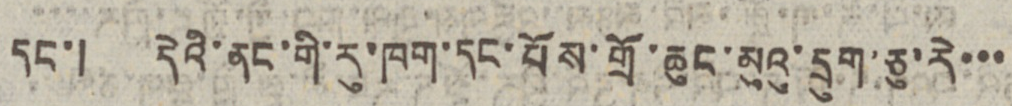དང་། དེའི་ནང་གི་རུ་ཁག་དང་པོས་གྲོ་ཆུང་མུའུ་དྲུག་ཅུ་རེ་་་
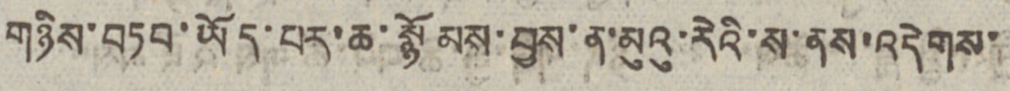གཉིས་བཏབ་ཡོད་པར་ཆ་སྙོམས་བྱས་ན་མུའུ་རེའི་ས་ནས་འདེགས་
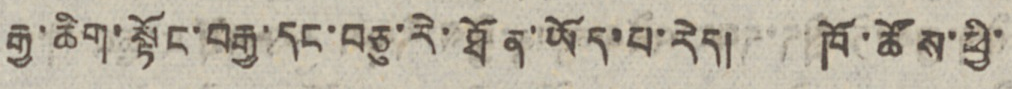རྒྱ་ཆིག་སྟོང་བརྒྱ་དང་བཅུ་རེ་ཐོན་ཡོད་པ་རེད། ཁོ་ཚོས་ཕྱི་
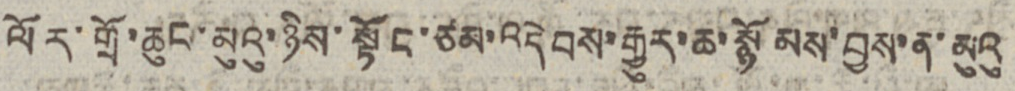ལོར་གྲོ་ཆུང་མུའུ་ཉིས་སྟོང་ཙམ་འདེབས་རྒྱུར་ཆ་སྙོམས་བྱས་ན་མུའུ
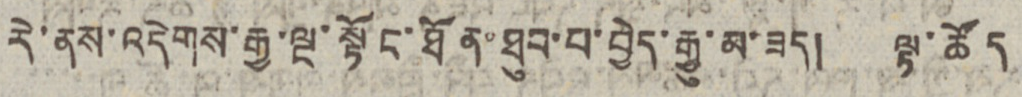རེ་ནས་འདེགས་རྒྱ་ལྔ་སྟོང་ཐོན་ཐུབ་པ་བྱེད་རྒྱུ་མ་ཟད། ལྟ་ཚོད
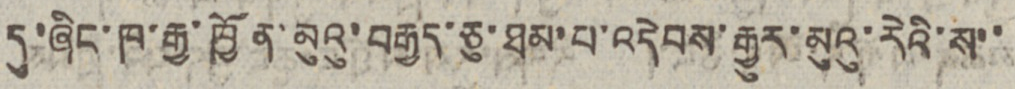དུ་ཞིང་ཁ་རྒྱ་ཁྱོན་མུའུ་བརྒྱད་ཅུ་ཐམ་པ་འདེབས་རྒྱུར་མུའུ་རེའི་ས་་
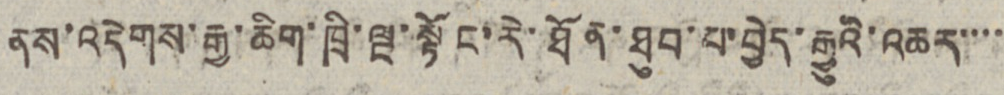ནས་འདེགས་རྒྱ་ཆིག་ཁྲི་ལྔ་སྟོང་རེ་ཐོན་ཐུབ་པ་བྱེད་རྒྱུའི་འཆར་་་་
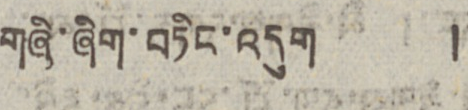གཞི་ཞིག་བཏིང་འདུག །
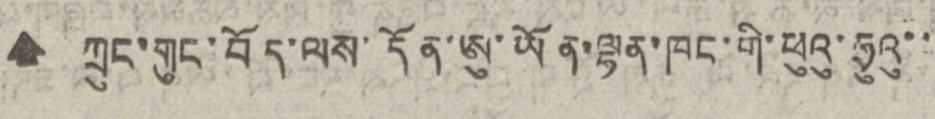🠹 ཀྲུང་གུང་བོད་ལས་དོན་ཨུ་ཡོན་ལྷན་ཁང་གི་ཕུའུ་ཧྲུའུ་་
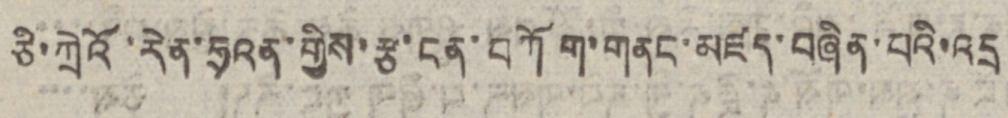ཅི་ཀྲེའོ་རེན་ཧྲའན་གྱིས་རྩ་ངན་བཀོག་གནང་མཛད་བཞིན་པའི་འདྲ
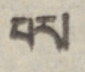པར།
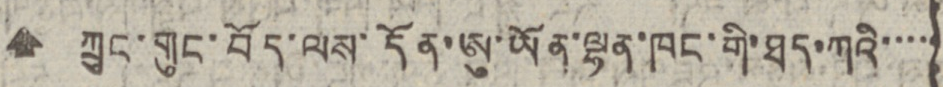🠹 ཀྲུང་གུང་བོད་ལས་དོན་ཨུ་ཡོན་ལྷན་ཁང་གི་ཐད་ཀའི་་་་་
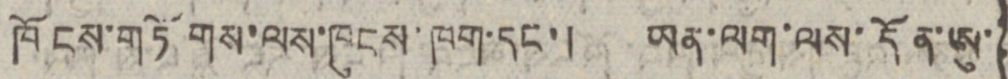ཁོངས་གཏོགས་ལས་ཁུངས་ཁག་དང་། ཡན་ལག་ལས་དོན་ཨུ་
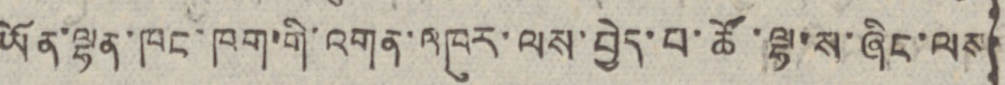ཡོན་ལྷན་ཁང་ཁག་གི་འགན་འཁུར་ལས་བྱེད་པ་ཚོ་ལྷ་ས་ཞིང་ལས་
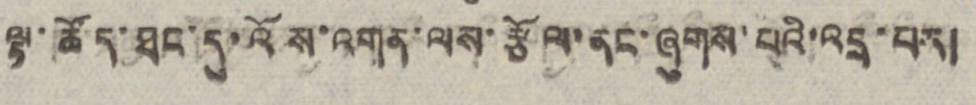ལྟ་ཚོད་ཐང་དུ་འོས་འགན་ལས་རྩོལ་ནང་ཞུགས་པའི་འདྲ་པར།
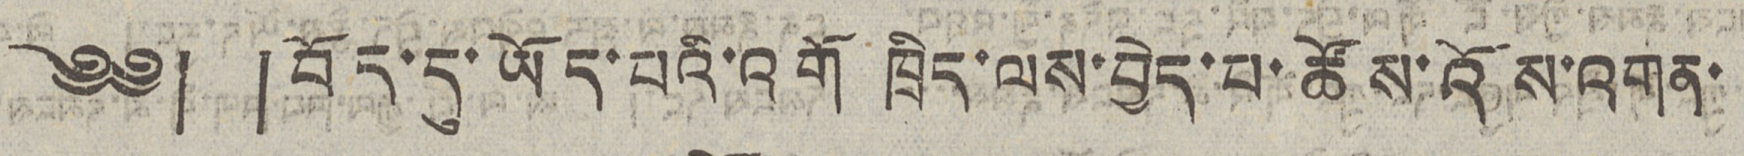༄༅། །བོད་དུ་ཡོད་པའི་འགོ ཁྲིད་ལས་བྱེད་པ་ཚོས་འོས་འགན་
